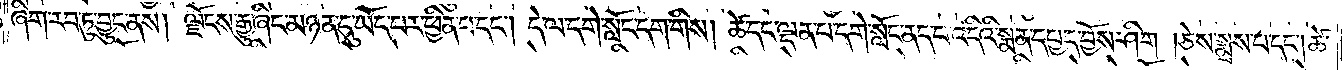ཞིག་རབ་ཏུ་བྱུང་ནས། ལྗོངས་རྒྱུ་ཞིང་མཉན་དུ་ཡོད་པར་ཕྱིན་པ་དང༌། དེ་ལ་དགེ་སློང་དག་གིས། ཚེ་དང་ལྡན་པ་དགེ་སློང་ནད་པ་འདིའི་སྨན་དཔྱད་བྱོས་ཤིག །ཅེས་སྨྲས་པ་དང༌། ཚེ་
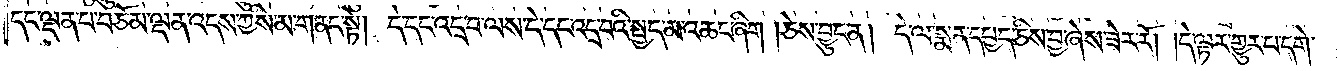དང་ལྡན་པ་བཅོམ་ལྡན་འདས་ཀྱིས་མ་གནང་སྟེ། དེ་དང་འདྲ་བ་ལས་དེ་དང་འདྲ་བའི་སྤྱད་མ་འཆང་ཞིག །ཅེས་བྱུང་ན། དེ་ལ་སྨན་དཔྱད་ཅིས་བྱ་ཞེས་ཟེར་རོ། །དེ་ལྟར་གྱུར་པ་དགེ་
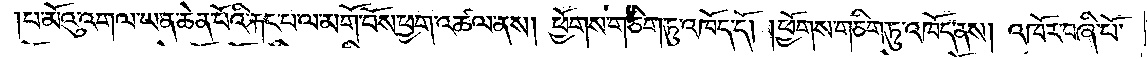པ་མོའུ་འགལ་ཡ་ན་ཆེན་པོའི་རྐང་པ་ལ་མགོ་བོས་ཕྱག་འཚལ་ནས། ཕྱོགས་གཅིག་ཏུ་འཁོད་དོ། །ཕྱོགས་གཅིག་ཏུ་འཁོད་ནས། འཁོར་བཞི་པོ་
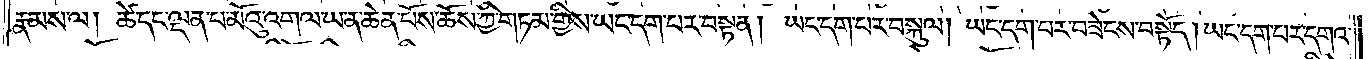རྣམས་ལ། ཚེ་དང་ལྡན་པ་མོའུ་འགལ་ཡ་ན་ཆེན་པོས་ཆོས་ཀྱི་གཏམ་གྱིས་ཡང་དག་པར་བསྟན། ཡང་དག་པར་བསྐུལ། ཡང་དག་པར་གཟེངས་བསྟོད། ཡང་དག་པར་དགའ་
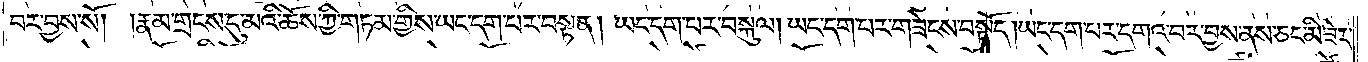བར་བྱས་སོ། །རྣམ་གྲངས་དུ་མའི་ཆོས་ཀྱི་གཏམ་གྱིས་ཡང་དག་པར་བསྟན། ཡང་དག་པར་བསྐུལ། ཡང་དག་པར་གཟེངས་བསྟོད། ཡང་དག་པར་དགའ་བར་བྱས་ནས་ཅང་མི་ཟེར་
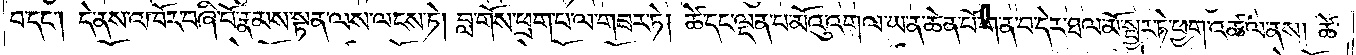བ་དང༌། དེ་ནས་འཁོར་བཞི་པོ་རྣམས་སྟན་ལས་ལངས་ཏེ། བླ་གོས་ཕྲག་པ་ལ་གཟར་ཏེ། ཚེ་དང་ལྡན་པ་མོའུ་འགལ་ཡ་ན་ཆེན་པོ་ག་ན་བ་དེར་ཐལ་མོ་སྦྱར་ཏེ་ཕྱག་འཚལ་ནས། ཚེ་
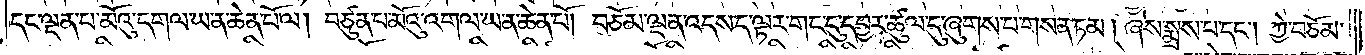དང་ལྡན་པ་མོའུ་དགལ་ཡ་ན་ཆེན་པོ་ལ། བཙུན་པ་མོའུ་འགལ་ཡ་ན་ཆེན་པོ། བཅོམ་ལྡན་འདས་ད་ལྟར་གང་དུ་དབྱར་ཚུལ་དུ་ཞུགས་པ་གསན་ཏམ། ཞེས་སྨྲས་པ་དང༌། ཀྱེ་བཅོམ་
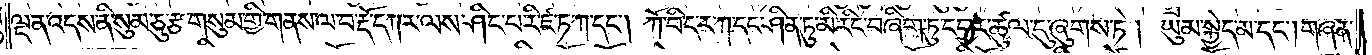ལྡན་འདས་ནི་སུམ་ཅུ་རྩ་གསུམ་གྱི་གནས་ལ་བ་རྡོ་དཀར་ལས་ཤིང་པ་རི་ཛ་ཏ་ཀ་དང༌། ཀོ་བི་ང་ར་ཀ་དང་ཤིན་ཏུ་མི་རིང་བ་ཞིག་ཏུ་དབྱར་ཚུལ་དུ་ཞུགས་ཏེ། ཡུམ་སྐྱེད་མ་དང༌། གཞན་
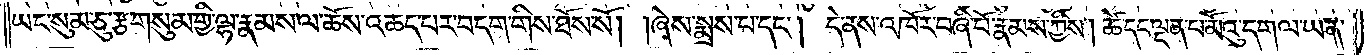ཡང་སུམ་ཅུ་རྩ་གསུམ་གྱི་ལྷ་རྣམས་ལ་ཆོས་འཆད་པར་བདག་གིས་ཐོས་སོ། །ཞེས་སྨྲས་པ་དང༌། དེ་ནས་འཁོར་བཞི་པོ་རྣམས་ཀྱིས། ཚེ་དང་ལྡན་པ་མོའུ་དགལ་ཡ་ན་
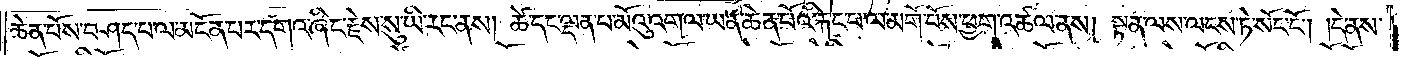ཆེན་པོས་བཤད་པ་ལ་མངོན་པར་དགའ་ཞིང་རྗེས་སུ་ཡི་རང་ནས། ཚེ་དང་ལྡན་པ་མོའུ་འགལ་ཡ་ན་ཆེན་པོའི་རྐང་པ་ལ་མགོ་བོས་ཕྱག་འཚལ་ནས། སྟན་ལས་ལངས་ཏེ་སོང་ངོ༌། །དེ་ནས་
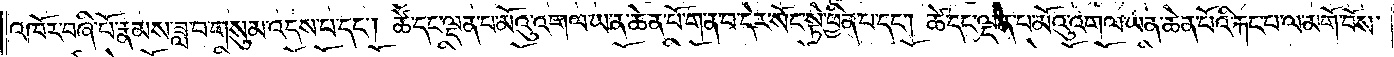འཁོར་བཞི་པོ་རྣམས་ཟླ་བ་གསུམ་འདས་པ་དང༌། ཚེ་དང་ལྡན་པ་མོའུ་འགལ་ཡ་ན་ཆེན་པོ་ག་ན་བ་དེར་སོང་སྟེ་ཕྱིན་པ་དང༌། ཚེ་དང་ལྡན་པ་མོའུ་འགལ་ཡན་ཆེན་པོའི་རྐང་པ་ལ་མགོ་བོས་
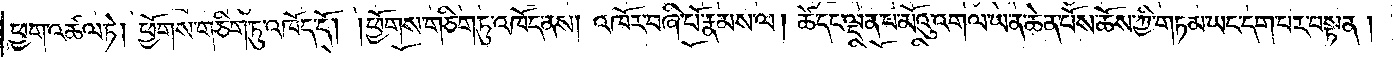ཕྱག་འཚལ་ཏེ། ཕྱོགས་གཅིག་ཏུ་འཁོད་དོ། །ཕྱོགས་གཅིག་ཏུ་འཁོད་ནས། འཁོར་བཞི་པོ་རྣམས་ལ། ཚེ་དང་ལྡན་པ་མོའུ་འགལ་ཡ་ན་ཆེན་པོས་ཆོས་ཀྱི་གཏམ་ཡང་དག་པར་བསྟན།
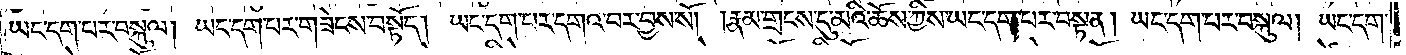ཡང་དག་པར་བསྐུལ། ཡང་དག་པར་གཟེངས་བསྟོད། ཡང་དག་པར་དགའ་བར་བྱས་སོ། །རྣམ་གྲངས་དུ་མའི་ཆོས་ཀྱིས་ཡང་དག་པར་བསྟན། ཡང་དག་པར་བསྐུལ། ཡང་དག་
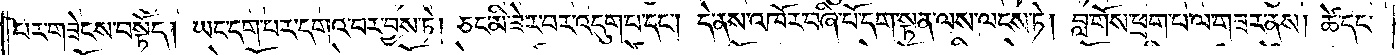པར་གཟེངས་བསྟོད། ཡང་དག་པར་དགའ་བར་བྱས་ཏེ། ཅང་མི་ཟེར་བར་འདུག་པ་དང༌། དེ་ནས་འཁོར་བཞི་པོ་དག་སྟན་ལས་ལངས་ཏེ། བླ་གོས་ཕྲག་པ་ལ་གཟར་ནས། ཚེ་དང་
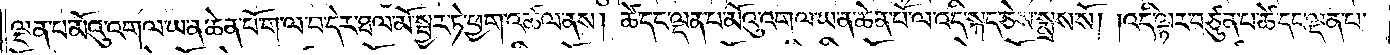ལྡན་པ་མོའུ་འགལ་ཡ་ན་ཆེན་པོ་ག་ལ་བ་དེར་ཐལ་མོ་སྦྱར་ཏེ་ཕྱག་འཚལ་ནས། ཚེ་དང་ལྡན་པ་མོའུ་འགལ་ཡ་ན་ཆེན་པོ་ལ་འདི་སྐད་ཅེས་སྨྲས་སོ། །འདི་ལྟར་བཙུན་པ་ཚེ་དང་ལྡན་པ་
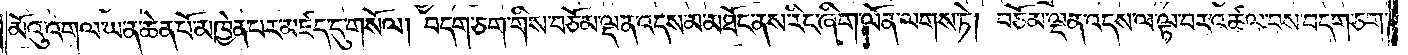མོའུ་འགལ་ཡ་ན་ཆེན་པོ་མཁྱེན་པར་མཛད་དུ་གསོལ། བདག་ཅག་གིས་བཅོམ་ལྡན་འདས་མ་མཐོང་ནས་རིང་ཞིག་ལོན་ལགས་ཏེ། བཅོམ་ལྡན་འདས་ལ་ལྟ་བར་འཚལ་བས་བདག་ཅག་
